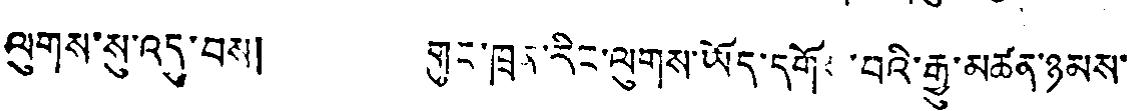ལུགས་སུ་འདུ་བས། གུང་ཁྲན་རིང་ལུགས་ཡོད་དགོན་བའི་རྒྱུ་མཚན་ཉམས་
